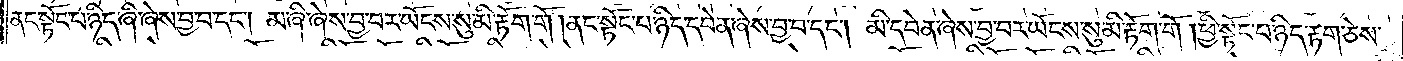ནང་སྟོང་པ་ཉིད་ཞི་ཞེས་བྱ་བ་དང༌། མ་ཞི་ཞེས་བྱ་བར་ཡོངས་སུ་མི་རྟོག་གོ །ནང་སྟོང་པ་ཉིད་དབེན་ཞེས་བྱ་བ་དང༌། མི་དབེན་ཞེས་བྱ་བར་ཡོངས་སུ་མི་རྟོག་གོ །ཕྱི་སྟོང་པ་ཉིད་རྟག་ཅེས་
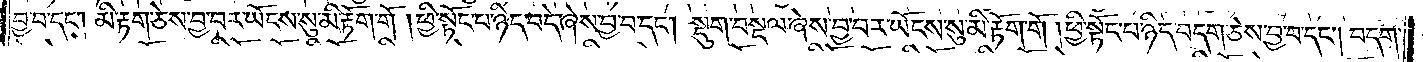བྱ་བ་དང༌། མི་རྟག་ཅེས་བྱ་བར་ཡོངས་སུ་མི་རྟོག་གོ །ཕྱི་སྟོང་པ་ཉིད་བདེ་ཞེས་བྱ་བ་དང༌། སྡུག་བསྔལ་ཞེས་བྱ་བར་ཡོངས་སུ་མི་རྟོག་གོ །ཕྱི་སྟོང་པ་ཉིད་བདག་ཅེས་བྱ་བ་དང༌། བདག་
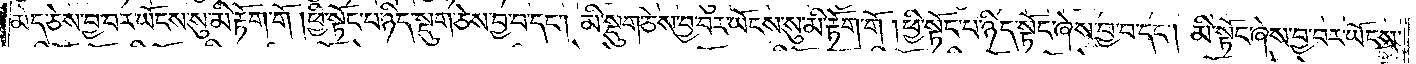མེད་ཅེས་བྱ་བར་ཡོངས་སུ་མི་རྟོག་གོ །ཕྱི་སྟོང་པ་ཉིད་སྡུག་ཅེས་བྱ་བ་དང༌། མི་སྡུག་ཅེས་བྱ་བར་ཡོངས་སུ་མི་རྟོག་གོ །ཕྱི་སྟོང་པ་ཉིད་སྟོང་ཞེས་བྱ་བ་དང༌། མི་སྟོང་ཞེས་བྱ་བར་ཡོངས་
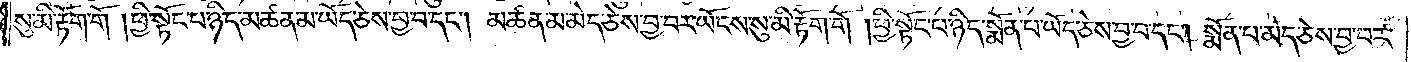སུ་མི་རྟོག་གོ །ཕྱི་སྟོང་པ་ཉིད་མཚན་མ་ཡོད་ཅེས་བྱ་བ་དང༌། མཚན་མ་མེད་ཅེས་བྱ་བར་ཡོངས་སུ་མི་རྟོག་གོ །ཕྱི་སྟོང་པ་ཉིད་སྨོན་པ་ཡོད་ཅེས་བྱ་བ་དང༌། སྨོན་པ་མེད་ཅེས་བྱ་བར་
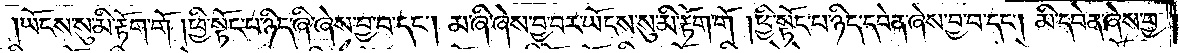ཡོངས་སུ་མི་རྟོག་གོ །ཕྱི་སྟོང་པ་ཉིད་ཞི་ཞེས་བྱ་བ་དང༌། མ་ཞི་ཞེས་བྱ་བར་ཡོངས་སུ་མི་རྟོག་གོ །ཕྱི་སྟོང་པ་ཉིད་དབེན་ཞེས་བྱ་བ་དང༌། མི་དབེན་ཞེས་བྱ་
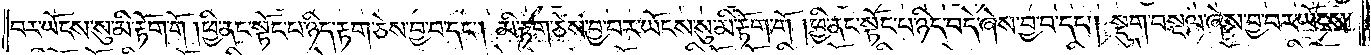བར་ཡོངས་སུ་མི་རྟོག་གོ །ཕྱི་ནང་སྟོང་པ་ཉིད་རྟག་ཅེས་བྱ་བ་དང༌། མི་རྟག་ཅེས་བྱ་བར་ཡོངས་སུ་མི་རྟོག་གོ །ཕྱི་ནང་སྟོང་པ་ཉིད་བདེ་ཞེས་བྱ་བ་དང༌། སྡུག་བསྔལ་ཞེས་བྱ་བར་ཡོངས་
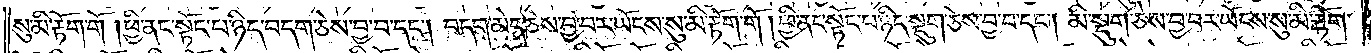སུ་མི་རྟོག་གོ །ཕྱི་ནང་སྟོང་པ་ཉིད་བདག་ཅེས་བྱ་བ་དང༌། བདག་མེད་ཅེས་བྱ་བར་ཡོངས་སུ་མི་རྟོག་གོ །ཕྱི་ནང་སྟོང་པ་ཉིད་སྡུག་ཅེས་བྱ་བ་དང༌། མི་སྡུག་ཅེས་བྱ་བར་ཡོངས་སུ་མི་རྟོག་
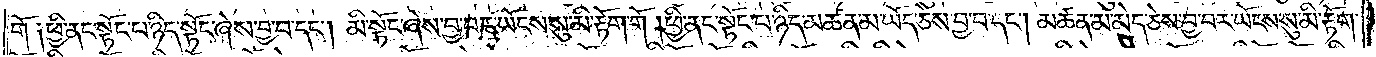གོ །ཕྱི་ནང་སྟོང་པ་ཉིད་སྟོང་ཞེས་བྱ་བ་དང༌། མི་སྟོང་ཞེས་བྱ་བར་ཡོངས་སུ་མི་རྟོག་གོ །ཕྱི་ནང་སྟོང་པ་ཉིད་མཚན་མ་ཡོད་ཅེས་བྱ་བ་དང༌། མཚན་མ་མེད་ཅེས་བྱ་བར་ཡོངས་སུ་མི་རྟོག་
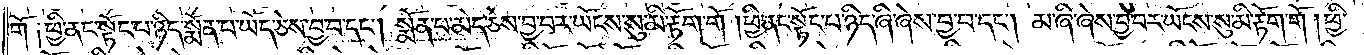གོ །ཕྱི་ནང་སྟོང་པ་ཉིད་སྨོན་པ་ཡོད་ཅེས་བྱ་བ་དང༌། སྨོན་པ་མེད་ཅེས་བྱ་བར་ཡོངས་སུ་མི་རྟོག་གོ །ཕྱི་ནང་སྟོང་པ་ཉིད་ཞི་ཞེས་བྱ་བ་དང༌། མ་ཞི་ཞེས་བྱ་བར་ཡོངས་སུ་མི་རྟོག་གོ །ཕྱི་
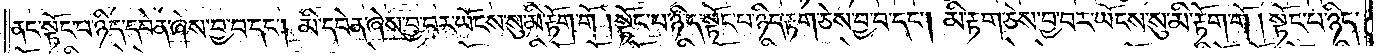ནང་སྟོང་པ་ཉིད་དབེན་ཞེས་བྱ་བ་དང༌། མི་དབེན་ཞེས་བྱ་བར་ཡོངས་སུ་མི་རྟོག་གོ །སྟོང་པ་ཉིད་སྟོང་པ་ཉིད་རྟག་ཅེས་བྱ་བ་དང༌། མི་རྟག་ཅེས་བྱ་བར་ཡོངས་སུ་མི་རྟོག་གོ །སྟོང་པ་ཉིད་
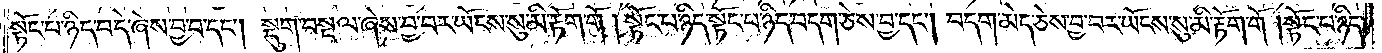སྟོང་པ་ཉིད་བདེ་ཞེས་བྱ་བ་དང༌། སྡུག་བསྔལ་ཞེས་བྱ་བར་ཡོངས་སུ་མི་རྟོག་གོ །སྟོང་པ་ཉིད་སྟོང་པ་ཉིད་བདག་ཅེས་བྱ་བ་དང༌། བདག་མེད་ཅེས་བྱ་བར་ཡོངས་སུ་མི་རྟོག་གོ །སྟོང་པ་ཉིད་
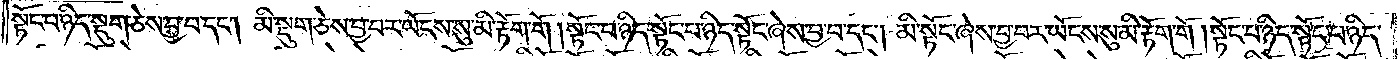སྟོང་པ་ཉིད་སྡུག་ཅེས་བྱ་བ་དང༌། མི་སྡུག་ཅེས་བྱ་བར་ཡོངས་སུ་མི་རྟོག་གོ །སྟོང་པ་ཉིད་སྟོང་པ་ཉིད་སྟོང་ཞེས་བྱ་བ་དང༌། མི་སྟོང་ཞེས་བྱ་བར་ཡོངས་སུ་མི་རྟོག་གོ །སྟོང་པ་ཉིད་སྟོང་པ་ཉིད་
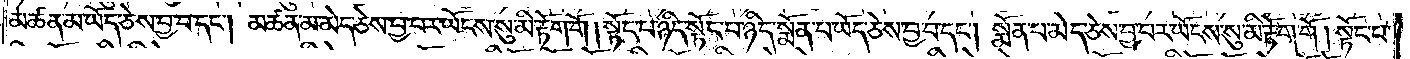མཚན་མ་ཡོད་ཅེས་བྱ་བ་དང༌། མཚན་མ་མེད་ཅེས་བྱ་བར་ཡོངས་སུ་མི་རྟོག་གོ །སྟོང་པ་ཉིད་སྟོང་པ་ཉིད་སྨོན་པ་ཡོད་ཅེས་བྱ་བ་དང༌། སྨོན་པ་མེད་ཅེས་བྱ་བར་ཡོངས་སུ་མི་རྟོག་གོ །སྟོང་པ་
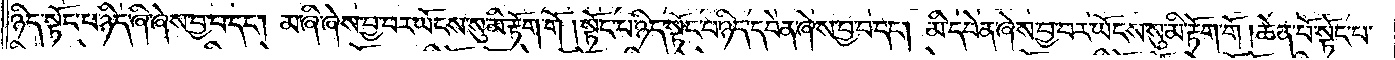ཉིད་སྟོང་པ་ཉིད་ཞི་ཞེས་བྱ་བ་དང༌། མི་ཞེ་ཞེས་བྱ་བར་ཡོངས་སུ་མི་རྟོག་གོ །སྟོང་པ་ཉིད་སྟོང་པ་ཉིད་དབེན་ཞེས་བྱ་བ་དང༌། མི་དབེན་ཞེས་བྱ་བར་ཡོངས་སུ་མི་རྟོག་གོ །ཆེན་པོ་སྟོང་པ་
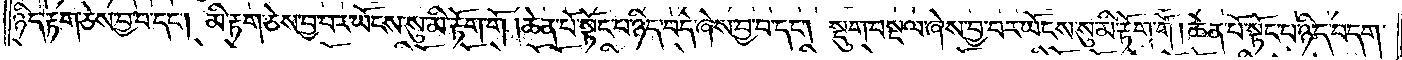ཉིད་རྟག་ཅེས་བྱ་བ་དང༌། མི་རྟག་ཅེས་བྱ་བར་ཡོངས་སུ་མི་རྟོག་གོ །ཆེན་པོ་སྟོང་པ་ཉིད་བདེ་ཞེས་བྱ་བ་དང༌། སྡུག་བསྔལ་ཞེས་བྱ་བར་ཡོངས་སུ་མི་རྟོག་གོ །ཆེན་པོ་སྟོང་པ་ཉིད་བདག་
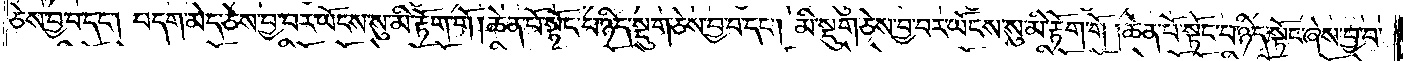ཅེས་བྱ་བ་དང༌། བདག་མེད་ཅེས་བྱ་བར་ཡོངས་སུ་མི་རྟོག་གོ །ཆེན་པོ་སྟོང་པ་ཉིད་སྡུག་ཅེས་བྱ་བ་དང༌། མི་སྡུག་ཅེས་བྱ་བར་ཡོངས་སུ་མི་རྟོག་གོ །ཆེན་པོ་སྟོང་པ་ཉིད་སྟོང་ཞེས་བྱ་བ་
